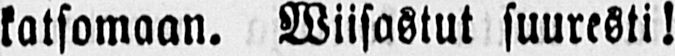katsomaan. Wiisastut suuresti!
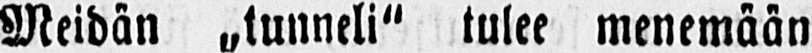Meidän ˶tunneli" tulee menemään
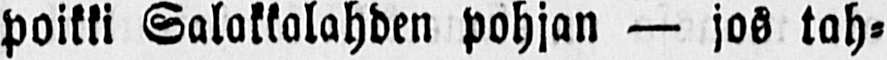poikki Salakkalahden pohjan — jos tah-
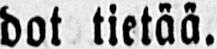dot tietää.
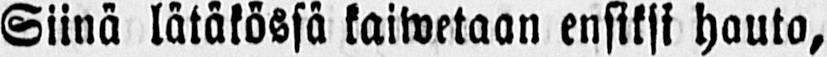Siinä lätäkössä kaiwetaan ensiksi hauta,
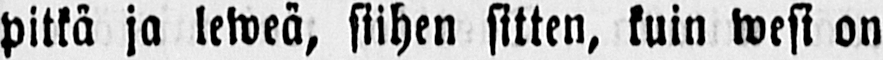pitkä ja leweä, siihen sitten, kuin wesi on
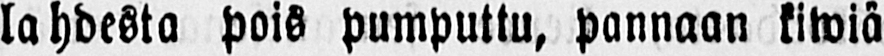lahdesta pois pumputtu, pannaan kiwiä
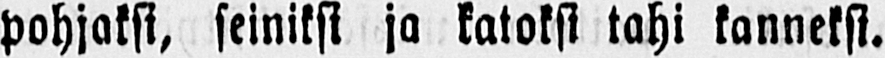pohjaksi, seiniksi ja katoksi tahi kanneksi.
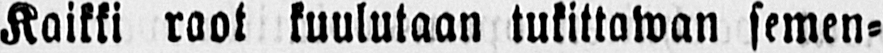Kaikki raot kuulutaan tukittawan semen-
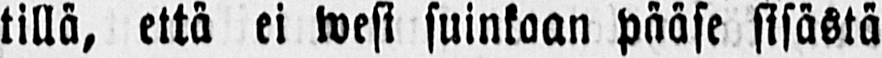tillä, että ei wesi suinkaan pääse sisästä
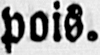pois.
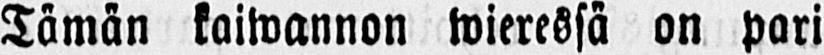Tämän kaiwannon wieressä on pari
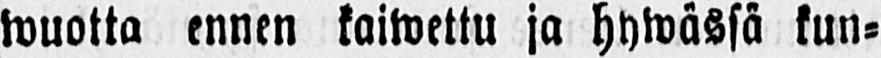wuotta ennen kaiwettu ja hywässä kun-
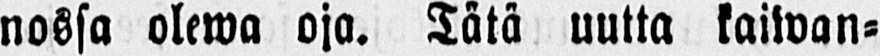nossa olewa oja. Tätä uutta kaiwan-
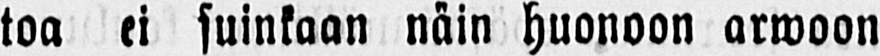toa ei suinkaan näin huonoon arwoon
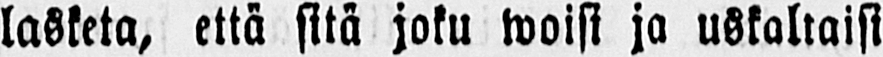lasketa, että sitä joku woisi ja uskaltaisi
